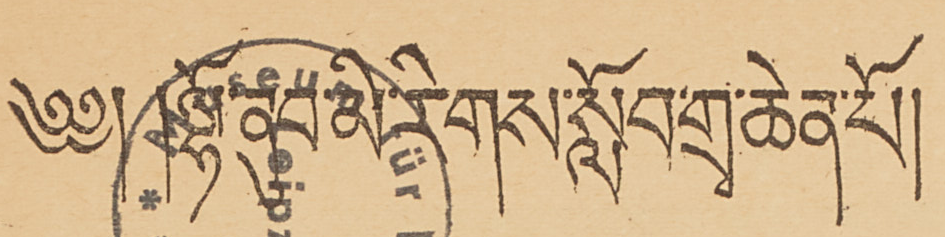༄༅། །ལྷོ་ནུབ་མི་རིགས་སློབ་གྲྭ་ཆེན་པོ།
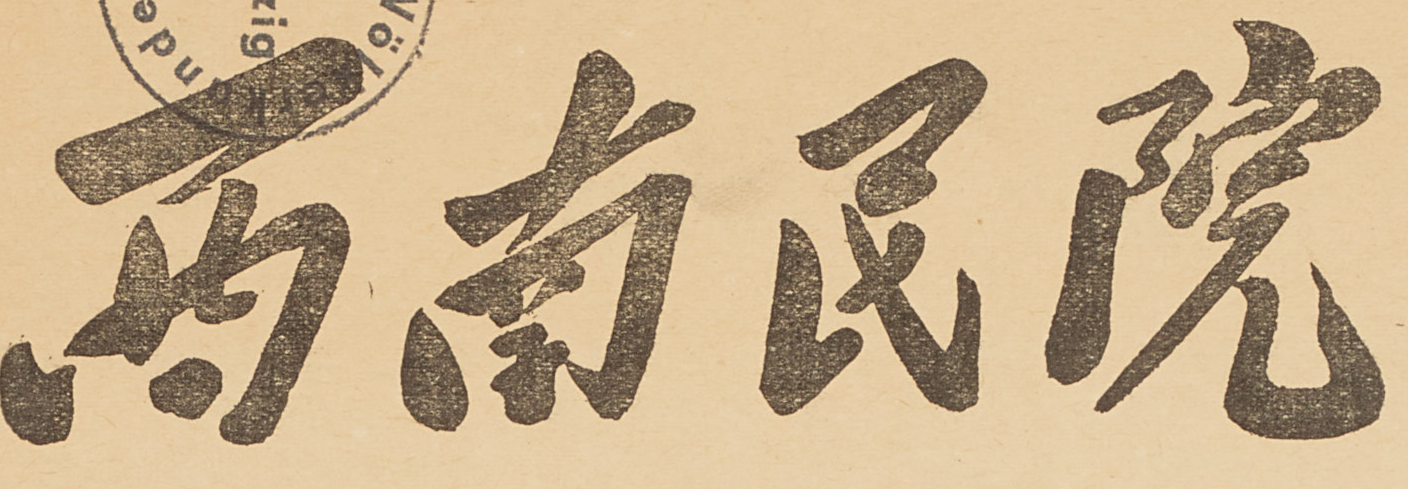西南民院
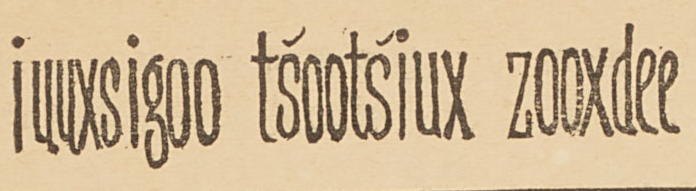iuuxsigoo ts'oots'iux zooxdee
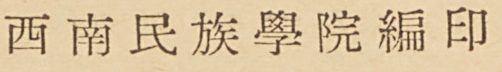西南民族學院編印
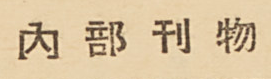內部刊物
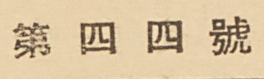第四四號
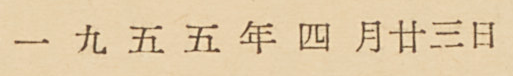一九五五年四月廿三日
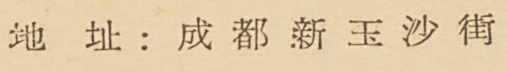地址：成都新玉沙街
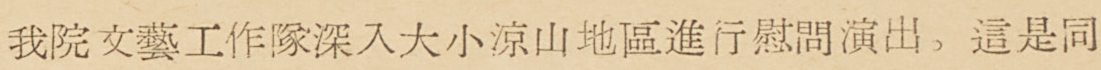我院文藝工作隊深入大小涼山地區進行慰問演出，這是同
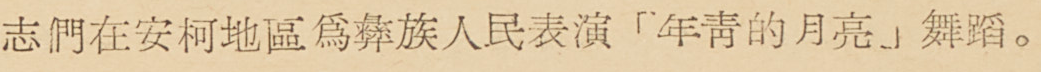志們在安柯地區為彝族人民表演「年靑的月亮」舞蹈。
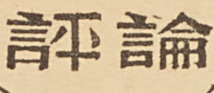評論
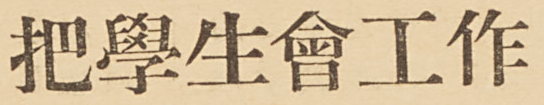把學生會工作
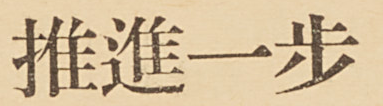推進一步
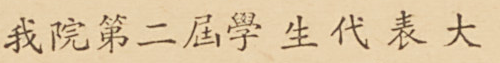我院第二屆學生代表大
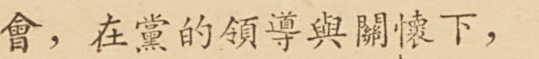會，在黨的領導與關懷下，
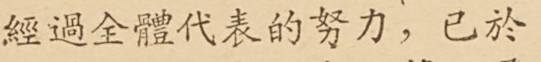經過全體代表的努力，已於
